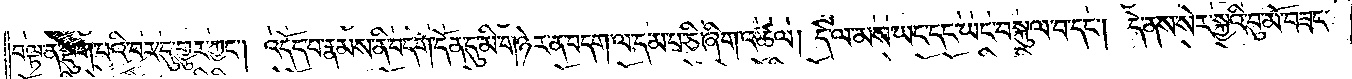བལྟ་ན་སྡུག་པའི་བར་དུ་གྱུར་ཀྱང༌། འདོད་པ་རྣམས་ནི་བདག་དོན་དུ་མི་གཉེར་ན་བདག་ལ་དམ་པ་ཅི་ཞིག་འཚལ། དེ་ལ་མས་ཡང་དང་ཡང་བསྐུལ་བ་དང༌། དེ་ནས་སེར་སྐྱའི་བུ་མོ་བཟང་
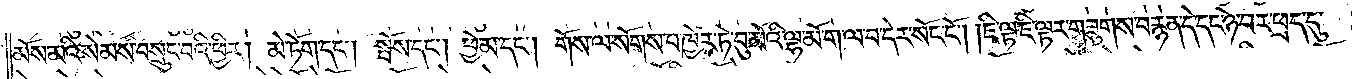མོས་མའི་སེམས་བསྲུང་བའི་ཕྱིར། མེ་ཏོག་དང༌། སྤོས་དང༌། ཕྱེ་མ་དང༌། གོས་ལ་སོགས་པ་ཁྱེར་ཏེ་བུ་མོའི་ལྷ་མོ་ག་ལ་བ་དེར་སོང་ངོ༌། །ཇི་ལྟ་ཇི་ལྟར་གཟུགས་བརྙན་དེ་དང་ཉེ་བར་ཕྲད་དུ་
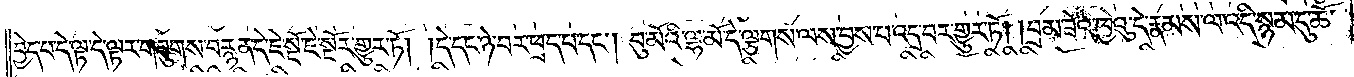བྱེད་པ་དེ་ལྟ་དེ་ལྟར་གཟུགས་བརྙན་དེ་ཇེ་སྔོ་ཇེ་སྔོར་གྱུར་ཏོ། །དེ་དང་ཉེ་བར་ཕྲད་པ་དང༌། བུ་མོའི་ལྷ་མོའི་དེ་ལྕགས་ལས་བྱས་པ་འདྲ་བར་གྱུར་ཏོ། །བྲམ་ཟེའི་ཁྱེའུ་དེ་རྣམས་ལ་འདི་སྙམ་དུ་ཆོ་
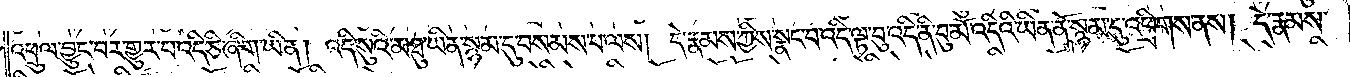འཕྲུལ་བྱུང་བར་གྱུར་པ་འདི་ཅི་ཞིག་ཡིན། འདི་སུའི་མཐུ་ཡིན་སྙམ་དུ་བསམས་པ་ལས། དེ་རྣམས་ཀྱིས་སྣང་བ་འདི་ལྟ་བུ་འདི་ནི་བུ་མོ་འདིའི་ཡིན་ནོ་སྙམ་དུ་འཕྲིགས་ནས། དེ་རྣམས་
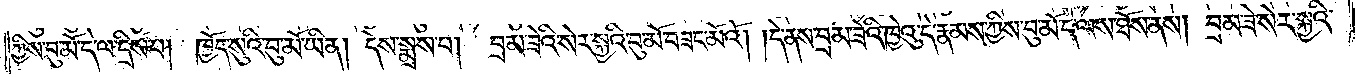ཀྱིས་བུ་མོ་དེ་ལ་དྲིས་པ། ཁྱོད་སུའི་བུ་མོ་ཡིན། དེས་སྨྲས་པ། བྲམ་ཟེའི་སེར་སྐྱའི་བུ་མོ་བཟང་མོའོ། །དེ་ནས་བྲམ་ཟེའི་ཁྱེའུ་དེ་རྣམས་ཀྱིས་བུ་མོ་དེ་ལས་ཐོས་ནས། བྲམ་ཟེ་སེར་སྐྱའི་
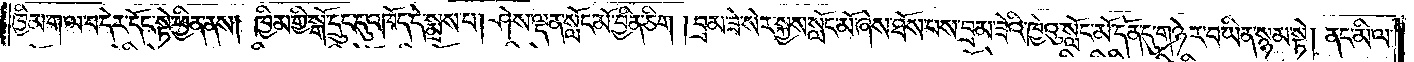ཁྱིམ་ག་ལ་བ་དེར་དོང་སྟེ་ཕྱིན་ནས། ཁྱིམ་གྱི་སྒོ་དྲུང་དུ་འཁོད་དེ་སྨྲས་པ། ཤེས་ལྡན་སློང་མོ་བྱིན་ཅིག །བྲམ་ཟེ་སེར་སྐྱས་སློང་མོ་ཞེས་ཐོས་བས་བྲམ་ཟེའི་ཁྱེའུ་སློང་མོ་དོན་དུ་གཉེར་བ་ཡིན་སྙམ་སྟེ། ནང་མི་ལ་
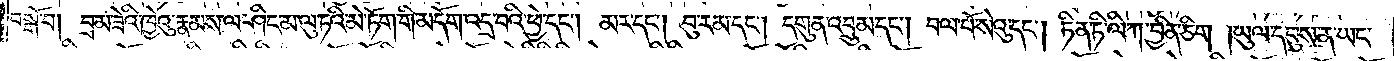བསྒོ་བ། བྲམ་ཟེའི་ཁྱེའུ་རྣམས་ལ་ཤིང་མ་ལུ་ཏའི་མེ་ཏོག་གི་མདོག་འདྲ་བའི་ཕྱེ་དང༌། མར་དང༌། བུ་རམ་དང༌། དགུན་འབྲུམ་དང༌། བལ་པོ་སེའུ་དང༌། ཏིན་ཏི་ལི་ཀ་བྱིན་ཅིག །ཡུལ་དབུས་ན་ཡང་
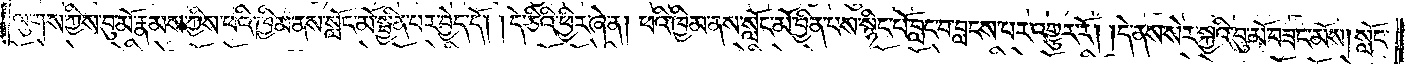ལུགས་ཀྱིས་བུ་མོ་རྣམས་ཀྱིས་ཕའི་ཁྱིམ་ནས་སློང་མོ་སྦྱིན་པར་བྱེད་དོ། །དེ་ཅིའི་ཕྱིར་ཞེ་ན། ཕའི་ཁྱིམ་ནས་སློང་མོ་བྱིན་པས་སྙིང་པོ་བླང་བ་བླངས་པར་འགྱུར་རོ། །དེ་ནས་སེར་སྐྱའི་བུ་མོ་བཟང་མོས། སློང་
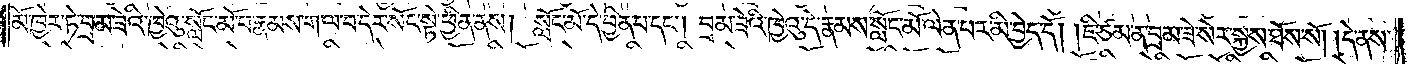མོ་ཁྱེར་ཏེ་བྲམ་ཟེའི་ཁྱེའུ་སློང་མོ་བ་རྣམས་ག་ལ་བ་དེར་སོང་སྟེ་ཕྱིན་ནས། སློང་མོ་དེ་བྱིན་པ་དང༌། བྲམ་ཟེའི་ཁྱེའུ་དེ་རྣམས་སློང་མོ་ལེན་པར་མི་བྱེད་དོ། །ཇི་ཙམ་ན་བྲམ་ཟེ་སེར་སྐྱས་ཐོས་སོ། །དེ་ནས་
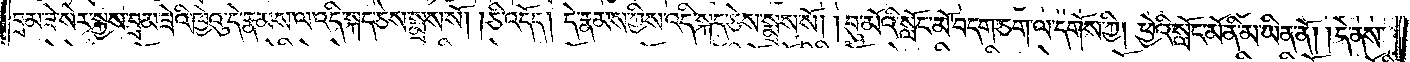བྲམ་ཟེ་སེར་སྐྱས་བྲམ་ཟེའི་ཁྱེའུ་དེ་རྣམས་ལ་འདི་སྐད་ཅེས་སྨྲས་སོ། །ཅི་འདོད། དེ་རྣམས་ཀྱིས་འདི་སྐད་ཅེས་སྨྲས་སོ། །བུ་མོའི་སློང་མོ་བདག་ཅག་ལ་དགོས་ཀྱི། ཕྱེའི་སློང་མོ་ནི་མ་ཡིན་ནོ། །དེ་ནས་
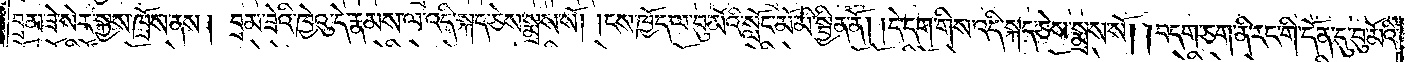བྲམ་ཟེ་སེར་སྐྱས་ཁྲོས་ནས། བྲམ་ཟེའི་ཁྱེའུ་དེ་རྣམས་ལ་འདི་སྐད་ཅེས་སྨྲས་སོ། །ངས་ཁྱོད་ལ་བུ་མོའི་སློང་མོ་མི་སྦྱིན་ནོ། །དེ་དག་གིས་འདི་སྐད་ཅེས་སྨྲས་སོ། །བདག་ཅག་ནི་རང་གི་དོན་དུ་བུ་མོའི་
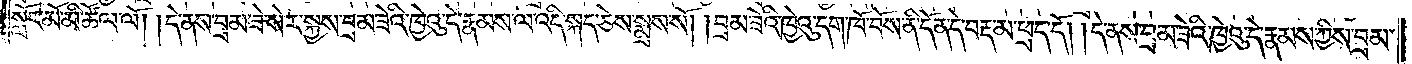སློང་མོ་མི་ཚོལ་ལོ། །དེ་ནས་བྲམ་ཟེ་སེར་སྐྱས་བྲམ་ཟེའི་ཁྱེའུ་དེ་རྣམས་ལ་འདི་སྐད་ཅེས་སྨྲས་སོ། །བྲམ་ཟེའི་ཁྱེའུ་དག་ཁོ་བོས་ནི་དོན་དེ་བརྡ་མ་ཕྲད་དོ། །དེ་ནས་བྲམ་ཟེའི་ཁྱེའུ་དེ་རྣམས་ཀྱིས་བྲམ་
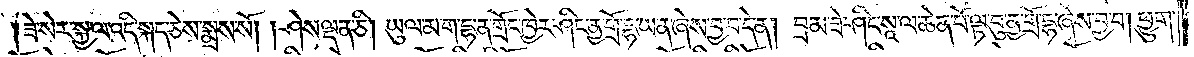།ཟེ་སེར་སྐྱ་ལ་འདི་སྐད་ཅེས་སྨྲས་སོ། །ཤེས་ལྡན་ཅི། ཡུལ་མ་ག་དྷ་ན་གྲོང་ཁྱེར་ཤིང་ནྱ་གྲོ་དྷ་ཡ་ན་ཞེས་བྱ་བ་དེ་ན། བྲམ་ཟེ་ཤིང་སཱ་ལ་ཆེན་པོ་ལྟ་བུ་ནྱ་གྲོ་དྷ་ཞེས་བྱ་བ། ཕྱུག་
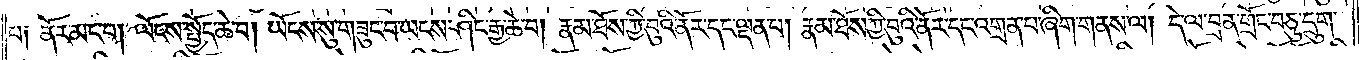པ། ནོར་མང་བ། ལོངས་སྤྱོད་ཆེ་བ། ཡོངས་སུ་གཟུང་བ་ཡངས་ཤིང་རྒྱ་ཆེ་བ། རྣམ་ཐོས་ཀྱི་བུའི་ནོར་དང་ལྡན་པ། རྣམ་ཐོས་ཀྱི་བུའི་ནོར་དང་འགྲན་པ་ཞིག་གནས་ལ། དེ་ལ་བྲན་གྲོང་བཅུ་དྲུག་
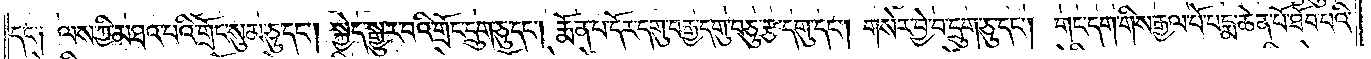དང༌། ལས་ཀྱི་མཐའ་པའི་གྲོང་སུམ་ཅུ་དང༌། སྐྱེད་སྒྱུར་བའི་གྲོང་དྲུག་ཅུ་དང༌། རྨོན་པ་དོར་དགུ་བརྒྱ་དགུ་བཅུ་རྩ་དགུ་དང༌། གསེར་བྱེ་བ་དྲུག་ཅུ་དང༌། གང་དག་གིས་རྒྱལ་པོ་པདྨ་ཆེན་པོ་ཐོབ་པའི་
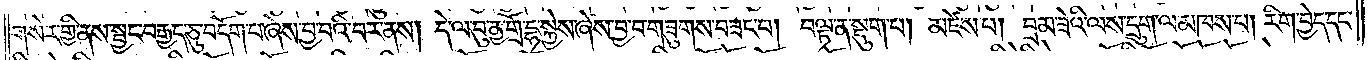གསེར་གྱི་ནས་སྦྱང་བརྒྱད་ཅུ་བདོག་པ་ཞེས་བྱ་བའི་བར་ནས། དེ་ལ་བུ་ནྱ་གྲོ་དྷ་སྐྱེས་ཞེས་བྱ་བ་གཟུགས་བཟང་བ། བལྟ་ན་སྡུག་པ། མཛེས་པ། བྲམ་ཟེའི་ལས་དྲུག་ལ་མཁས་པ། རིག་བྱེད་དང་
